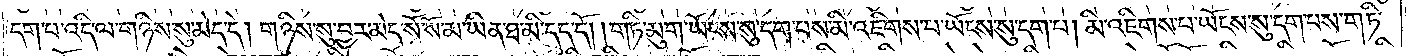དག་པ་འདི་ལ་གཉིས་སུ་མེད་དེ། གཉིས་སུ་བྱར་མེད་སོ་སོ་མ་ཡིན་ཐ་མི་དད་དོ། །གཏི་མུག་ཡོངས་སུ་དག་པས་མི་འཇིགས་པ་ཡོངས་སུ་དག་པ། མི་འཇིགས་པ་ཡོངས་སུ་དག་པས་གཏི་
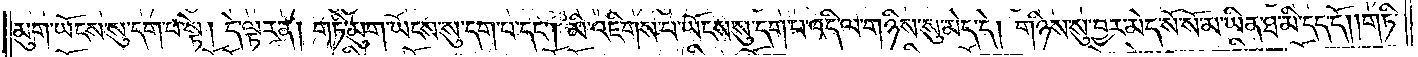མུག་ཡོངས་སུ་དག་པ་སྟེ། དེ་ལྟར་ན། གཏི་མུག་ཡོངས་སུ་དག་པ་དང༌། མི་འཇིགས་པ་ཡོངས་སུ་དག་པ་འདི་ལ་གཉིས་སུ་མེད་དེ། གཉིས་སུ་བྱར་མེད་སོ་སོ་མ་ཡིན་ཐ་མི་དད་དོ། །གཏི་
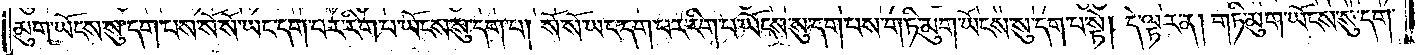མུག་ཡོངས་སུ་དག་པས་སོ་སོ་ཡང་དག་པར་རིག་པ་ཡོངས་སུ་དག་པ། སོ་སོ་ཡང་དག་པར་རིག་པ་ཡོངས་སུ་དག་པས་གཏི་མུག་ཡོངས་སུ་དག་པ་སྟེ། དེ་ལྟར་ན། གཏི་མུག་ཡོངས་སུ་དག་
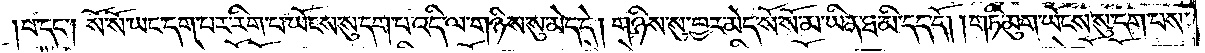པ་དང༌། སོ་སོ་ཡང་དག་པར་རིག་པ་ཡོངས་སུ་དག་པ་འདི་ལ་གཉིས་སུ་མེད་དེ། གཉིས་སུ་བྱར་མེད་སོ་སོ་མ་ཡིན་ཐ་མི་དད་དོ། །གཏི་མུག་ཡོངས་སུ་དག་པས་
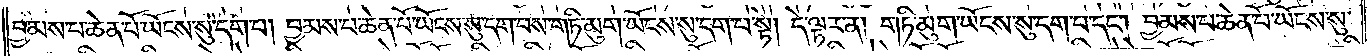བྱམས་པ་ཆེན་པོ་ཡོངས་སུ་དག་པ། བྱམས་པ་ཆེན་པོ་ཡོངས་སུ་དག་པས་གཏི་མུག་ཡོངས་སུ་དག་པ་སྟེ། དེ་ལྟར་ན། གཏི་མུག་ཡོངས་སུ་དག་པ་དང༌། བྱམས་པ་ཆེན་པོ་ཡོངས་སུ་
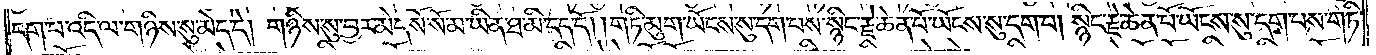དག་པ་འདི་ལ་གཉིས་སུ་མེད་དེ། གཉིས་སུ་བྱར་མེད་སོ་སོ་མ་ཡིན་ཐ་མི་དད་དོ། །གཏི་མུག་ཡོངས་སུ་དག་པས་སྙིང་རྗེ་ཆེན་པོ་ཡོངས་སུ་དག་པ། སྙིང་རྗེ་ཆེན་པོ་ཡོངས་སུ་དག་པས་གཏི་
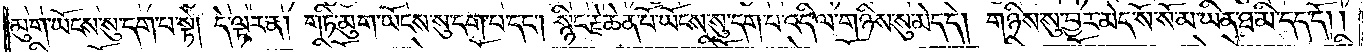མུག་ཡོངས་སུ་དག་པ་སྟེ། དེ་ལྟར་ན། གཏི་མུག་ཡོངས་སུ་དག་པ་དང༌། སྙིང་རྗེ་ཆེན་པོ་ཡོངས་སུ་དག་པ་འདི་ལ་གཉིས་སུ་མེད་དེ། གཉིས་སུ་བྱར་མེད་སོ་སོ་མ་ཡིན་ཐ་མི་དད་དོ། །
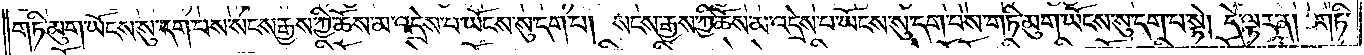གཏི་མུག་ཡོངས་སུ་དག་པས་སངས་རྒྱས་ཀྱི་ཆོས་མ་འདྲེས་པ་ཡོངས་སུ་དག་པ། སངས་རྒྱས་ཀྱི་ཆོས་མ་འདྲེས་པ་ཡོངས་སུ་དག་པས་གཏི་མུག་ཡོངས་སུ་དག་པ་སྟེ། དེ་ལྟར་ན། གཏི་
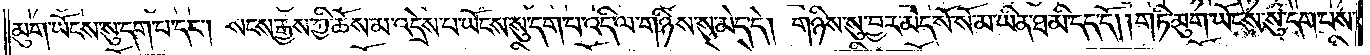མུག་ཡོངས་སུ་དག་པ་དང༌། སངས་རྒྱས་ཀྱི་ཆོས་མ་འདྲེས་པ་ཡོངས་སུ་དག་པ་འདི་ལ་གཉིས་སུ་མེད་དེ། གཉིས་སུ་བྱར་མེད་སོ་སོ་མ་ཡིན་ཐ་མི་དད་དོ། །གཏི་མུག་ཡོངས་སུ་དག་པས་
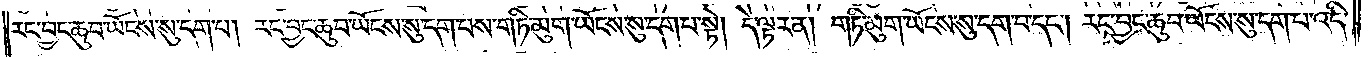རང་བྱང་ཆུབ་ཡོངས་སུ་དག་པ། རང་བྱང་ཆུབ་ཡོངས་སུ་དག་པས་གཏི་མུག་ཡོངས་སུ་དག་པ་སྟེ། དེ་ལྟར་ན། གཏི་མུག་ཡོངས་སུ་དག་པ་དང༌། རང་བྱང་ཆུབ་ཀྱི་ཡོངས་སུ་དག་པ་འདི་
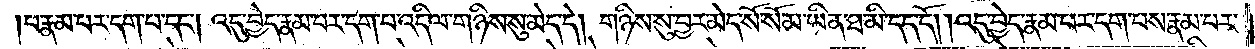པ་རྣམ་པར་དག་པ་དང༌། འདུ་བྱེད་རྣམ་པར་དག་པ་འདི་ལ་གཉིས་སུ་མེད་དེ། གཉིས་སུ་བྱར་མེད་སོ་སོ་མ་ཡིན་ཐ་མི་དད་དོ། །འདུ་བྱེད་རྣམ་པར་དག་པས་རྣམ་པར་
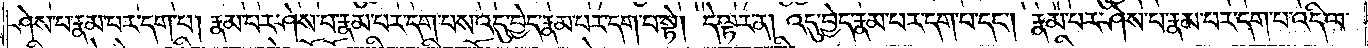ཤེས་པ་རྣམ་པར་དག་པ། རྣམ་པར་ཤེས་པ་རྣམ་པར་དག་པས་འདུ་བྱེད་རྣམ་པར་དག་པ་སྟེ། དེ་ལྟར་ན། འདུ་བྱེད་རྣམ་པར་དག་པ་དང༌། རྣམ་པར་ཤེས་པ་རྣམ་པར་དག་པ་འདི་ལ་
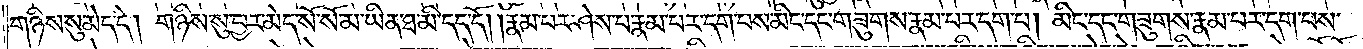གཉིས་སུ་མེད་དེ། གཉིས་སུ་བྱར་མེད་སོ་སོ་མ་ཡིན་ཐ་མི་དད་དོ། །རྣམ་པར་ཤེས་པ་རྣམ་པར་དག་པས་མིང་དང་གཟུགས་རྣམ་པར་དག་པ། མིང་དང་གཟུགས་རྣམ་པར་དག་པས་
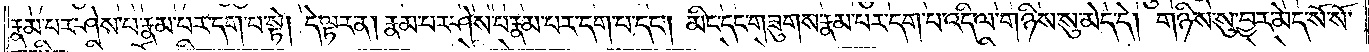རྣམ་པར་ཤེས་པ་རྣམ་པར་དག་པ་སྟེ། དེ་ལྟར་ན། རྣམ་པར་ཤེས་པ་རྣམ་པར་དག་པ་དང༌། མིང་དང་གཟུགས་རྣམ་པར་དག་པ་འདི་ལ་གཉིས་སུ་མེད་དེ། གཉིས་སུ་བྱར་མེད་སོ་སོ་
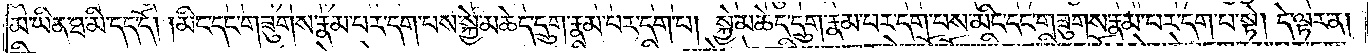མ་ཡིན་ཐ་མི་དད་དོ། །མིང་དང་གཟུགས་རྣམ་པར་དག་པས་སྐྱེ་མཆེད་དྲུག་རྣམ་པར་དག་པ། སྐྱེ་མཆེད་དྲུག་རྣམ་པར་དག་པས་མིང་དང་གཟུགས་རྣམ་པར་དག་པ་སྟེ། དེ་ལྟར་ན།
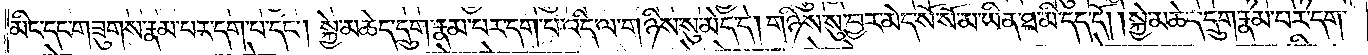མིང་དང་གཟུགས་རྣམ་པར་དག་པ་དང༌། སྐྱེ་མཆེད་དྲུག་རྣམ་པར་དག་པ་འདི་ལ་གཉིས་སུ་མེད་དེ། གཉིས་སུ་བྱར་མེད་སོ་སོ་མ་ཡིན་ཐ་མི་དད་དོ། །སྐྱེ་མཆེད་དྲུག་རྣམ་པར་དག་
